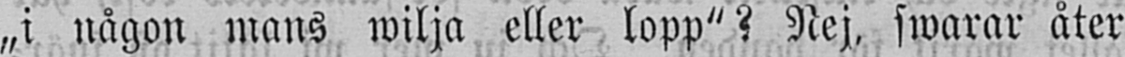„i någon mans wilja eller lopp"? Nej, swarar åter
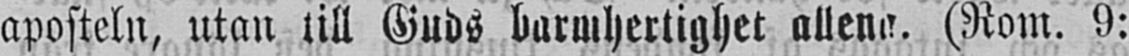aposteln, utan till Guds barmhertighet allena. (Rom. 9:
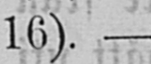16). -
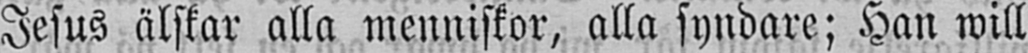Jesus älskar alla menniskor, alla syndare; Han will
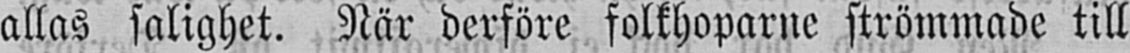allas salighet. När derföre folkhoparne strömmade till
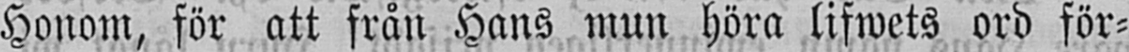Honom, för att från Hans mun höra lifwets ord för-
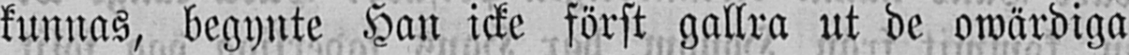kunnas, begynte Han icke först gallra ut de owärdiga
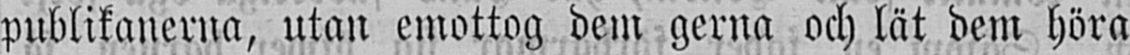publikanerna, utan emottog dem gerna och lät dem höra
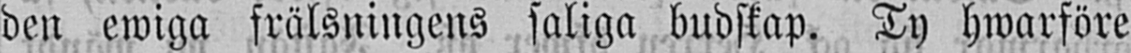den ewiga frälsningens saliga budskap. Ty hwarföre
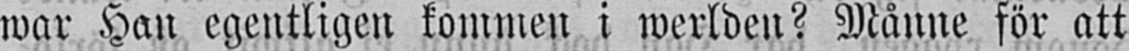war Han egentligen kommen i werlden? Månne för att
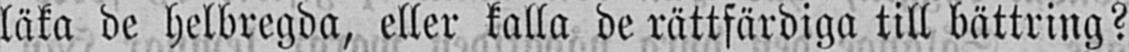läka de helbregda, eller kalla de rättfärdiga till bättring?
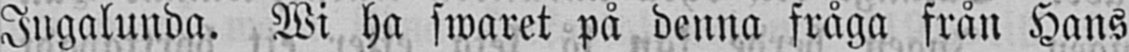Ingalunda. Wi ha swaret på denna fråga från Hans
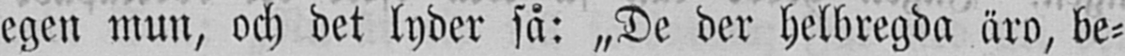egen mun, och det lyder så: „De der helbregda äro, be-
